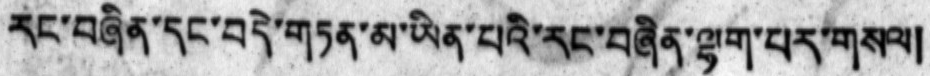རང་བཞིན་དང་བདེ་གཏན་མ་ཡིན་པའི་རང་བཞིན་ལྷག་པར་གསལ།
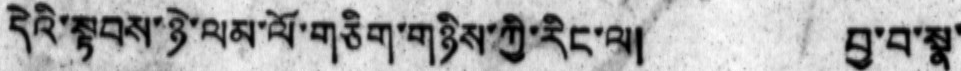དེའི་སྟབས་ཉེ་ལམ་ལོ་གཅིག་གཉིས་ཀྱི་རིང་ལ།   བྱ་བ་སྣ་
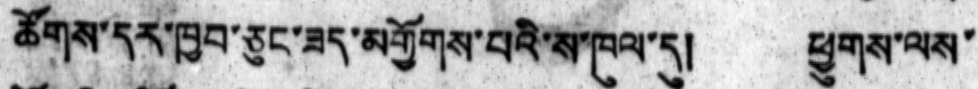ཚོགས་དར་ཁྱབ་ཅུང་ཟད་མགྱོགས་པའི་ས་ཁུལ་དུ། ཕྱུགས་ལས་
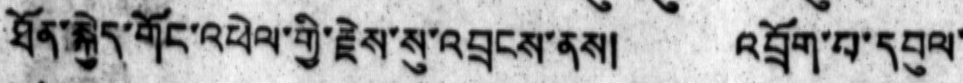ཐོན་སྐྱེད་གོང་འཕེལ་གྱི་རྗེས་སུ་འབྲངས་ནས། འབྲོག་པ་དབུལ་
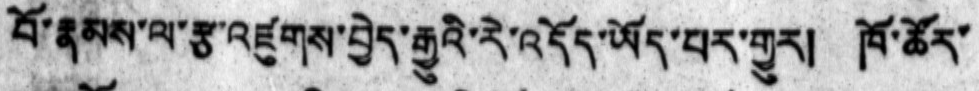བོ་རྣམས་ལ་རྩ་འཛུགས་བྱེད་རྒྱུའི་རེ་འདོད་ཡོད་པར་གྱུར། ཁོ་ཚོར་
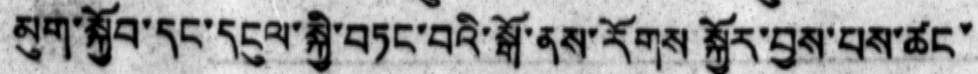མུག་སྐྱོབ་དང་དངུལ་སྐྱི་བཏང་བའི་སྒོ་ནས་རོགས་སྐྱོར་བྱས་པས་ཚང་
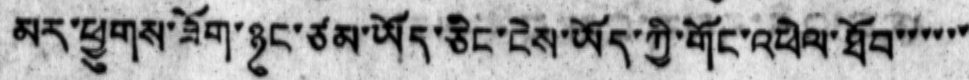མར་ཕྱུགས་ཟོག་ཉུང་ཙམ་ཡོད་ཅིང་ངེས་ཡོད་ཀྱི་གོང་འཕེལ་ཐོབ་་་་་་
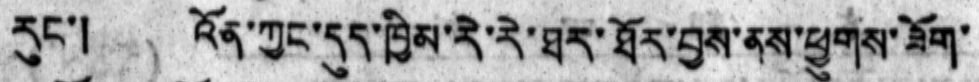རུང་། འོན་ཀྱང་དུད་ཁྱིམ་རེ་རེ་ཐར་ཐོར་བྱས་ནས་ཕྱུགས་ཟོག་
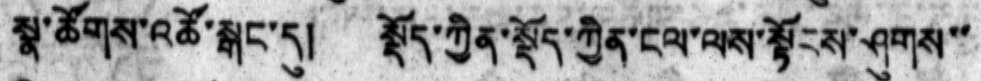སྣ་ཚོགས་འཚོ་སྒང་དུ། སྡོད་ཀྱིན་སྡོད་ཀྱིན་ངལ་ལས་སྟོངས་ཤུགས་་
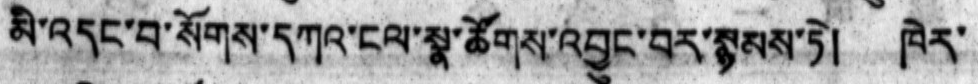མི་འདང་བ་སོགས་དཀའ་ངལ་སྣ་ཚོགས་འབྱུང་བར་སྙམས་ཏེ། ཁེར་
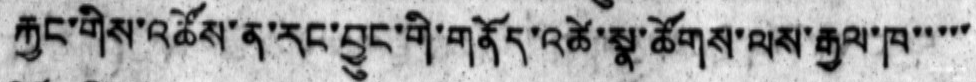རྐྱང་གིས་འཚོས་ན་རང་བྱུང་གི་གནོད་འཚེ་སྣ་ཚོགས་ལས་རྒྱལ་ཁ་་་་་
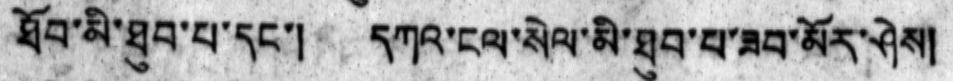ཐོབ་མི་ཐུབ་པ་དང་། དཀའ་ངལ་སེལ་མི་ཐུབ་པ་ཟབ་མོར་ཤེས།
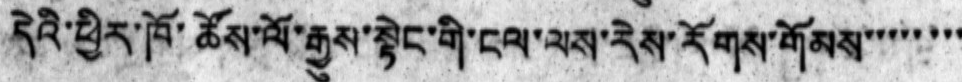དེའི་ཕྱིར་ཁོ་ཚོས་ལོ་རྒྱུས་སྟེང་གི་ངལ་ལས་རེས་རོགས་གོམས་་་་་་་་
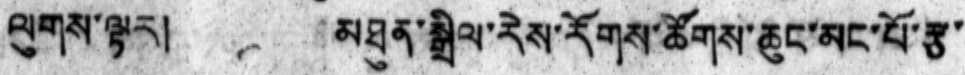ལུགས་ལྟར། མཐུན་སྒྲིལ་རེས་རོགས་ཚོགས་ཆུང་མང་པོ་རྩ་
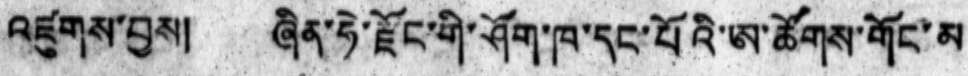འཛུགས་བྱས། ཞིན་ཧེ་རྫོང་གི་ཤོག་ཁ་དང་པོའི་ཨ་ཚོགས་གོང་མ
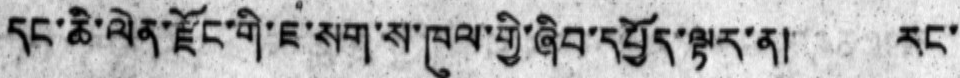དང་ཆི་ལེན་རྫོང་གི་ཇ་སག་ས་ཁུལ་གྱི་ཞིབ་དཔྱོད་ལྟར་ན། རང་
